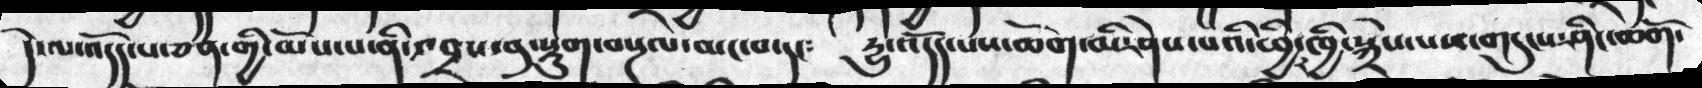དེ་ལ་འདོད་པ་ཅན་གྱི་མོས་པ་ནི་འབྲས་བུ་སྡུག་བསྔལ་མང་བ་དང༴  རྱུ་འདོད་པས་ཆོག་མི་ཤེས་པའི་ཕྱི་ཁྱི་སྐྲེས་པས་གདུངས་ཤིང་ཆོག་
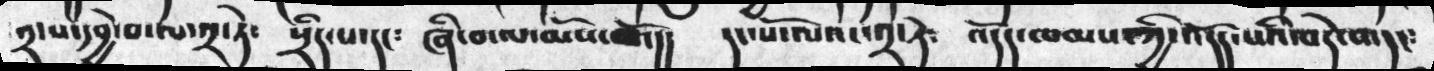༢་པ་དབྱེ་བ་ལ་༢་ཏེ༴   སྲིད་པ་དང༴  ཞི་བ་ལ་མོས་པའོ་།།   དང་པོ་ལའང་༢་ཏེ༴   འདོད་ཁམས་ཀྱི་འདོད་པའི་བདེ་བ་དང༴
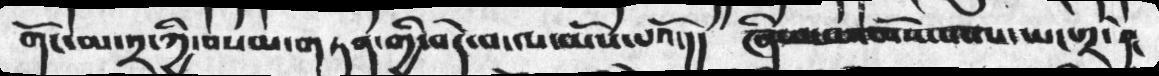གོང་མ་༢་ཀྱི་བསམ་གཏན་གྱི་བདེ་བ་ལ་མོས་པའོ་།།   ཞི་བ་ལ་མོས་པ་ལ་ཡང་༢་ཏེ༴
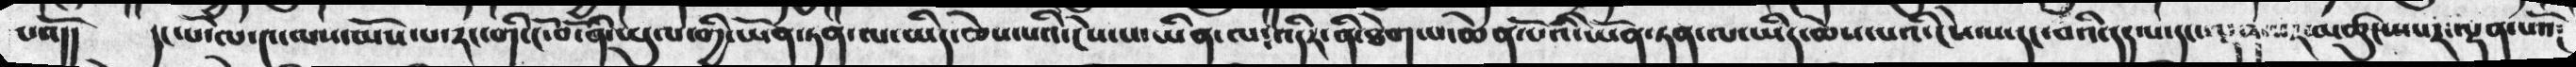པའོ།།  དང་པོ་ལ་༤་ལས་མོས་པ་རང་གི་ངོ་བོ་ནི་ཡུལ་གྱི་ཡོན་ཏན་ལ་ཡིད་ཆེས་པའི་ངེས་པ་ཡིན་ལ༴འདིར་ནི་ཐེག་པ་ཆེན་པོའི་ཡོན་ཏན་ལ་ཡིད་ཆེས་པའི་ངེས་པ་དང་བའི་དད་པ་དང་ལྡན་པར་མཚུངས་པར་ལྡན་པའོ༴
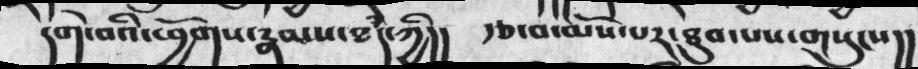དགེ་བའི་ཕྱོགས་རྣམས་ཐཾད་ཀྱི།།  རྩ་བ་མོས་པར་ཐུབ་པས་གསུངས།།
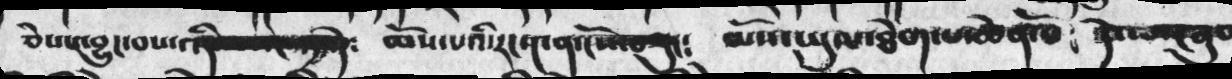ཅེས་འབྱུང་བས་       མོས་པའི་རང་༤ན་ངོས་བཟུང༴    མོས་ཡུལ་ཐེག་པ་ཆེན་པོ་   དེ་ལ་ཞུག
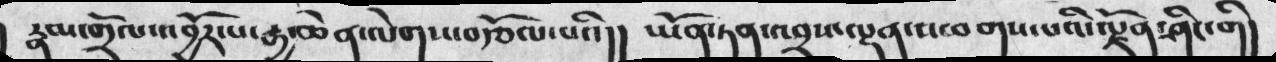རྣམ་གྲོལ་འབྱོར་པ་རྒྱ་ཆེན་ལེགས་བརྩོལ་བའི།།  ཡོན་ཏན་འབྲས་ལྡན་འཕགས་པའི་ལྗོན་ཤིང་གི།
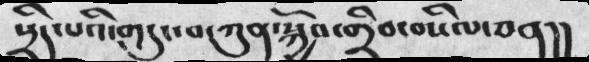སྲིད་པའི་གདུང་བ་ཀུན་སྐྱོབ་གྲིབ་བསིལ་ཅན།།
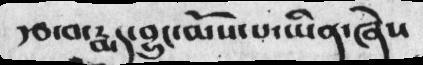རྩ་བ་རྨད་བྱུང་མོས་པ་ཡིན་ཞེས
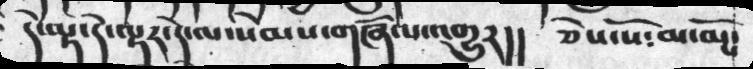དེ་ལྟ་དེ་ལྟར་དེ་ལ་སེམས་གཞོལ་འགྱུར།།  ཅེས་སོ༴  མ་མོས་
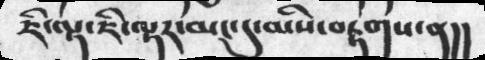ཇི་ལྟ་ཇི་ལྟར་མང་དུ་མིས་བརྟགས་ན།།
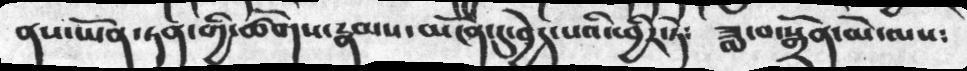ནས་ཡོན་ཏན་གྱི་ཚོགས་རྣམས་མངོན་དུ་བྱེད་པའི་ཕྱིར་ཏེ༴  ཟླ་བ་སྒྲོན་མེ་ལས༴
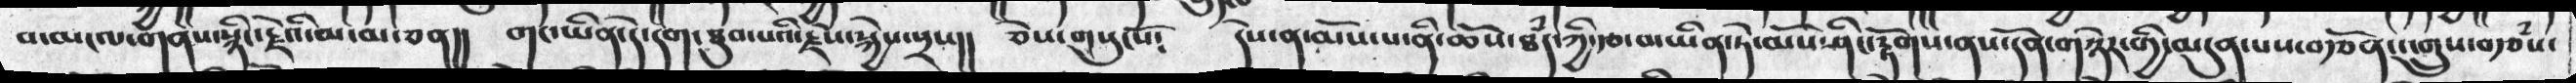བ་མངལ་གནས་སྙིང་རྗེའི་མ་མ་ཅན།།  གང་ཡིན་དེ་དག་ཐུབ་པའི་རྗེས་སྐྱེས་སྲས།།  ཅེས་གསུངསོ༴  དེས་ན་མོས་པ་ནི་ཆོས་ཐཾད་ཀྱི་རྩ་བ་ཡིན་ཏེ་མོས་ཤིང་རྟོགས་ནས་དོན་གཉེར་གྱི་མདུན་པས་བརྩོན་འགྲུས་བརྩཾས་
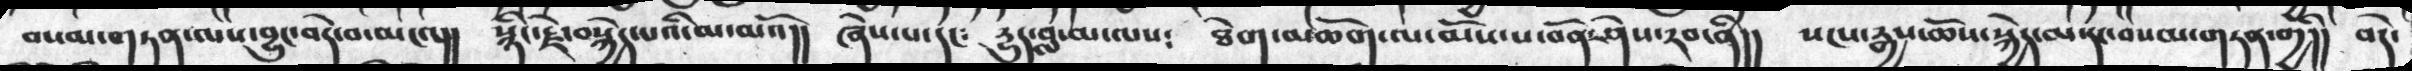བསམ་གཏན་ལས་བྱུང་བདེ་བ་མངའ།།  སྙིང་རྗེ་བསྐྱེད་པའི་མ་མའོ།།  ཞེས་པ་དང༴ རྱུད་བླ་མ་ལས༴  ཐེག་མཆོག་ལ་མོས་ས་བོན་ཤེས་རབ་ནི།།  སངས་རྒྱས་ཆོས་སྐྱེད་མ་དང་བསམ་གཏན་གྱི།།  བདེ་
